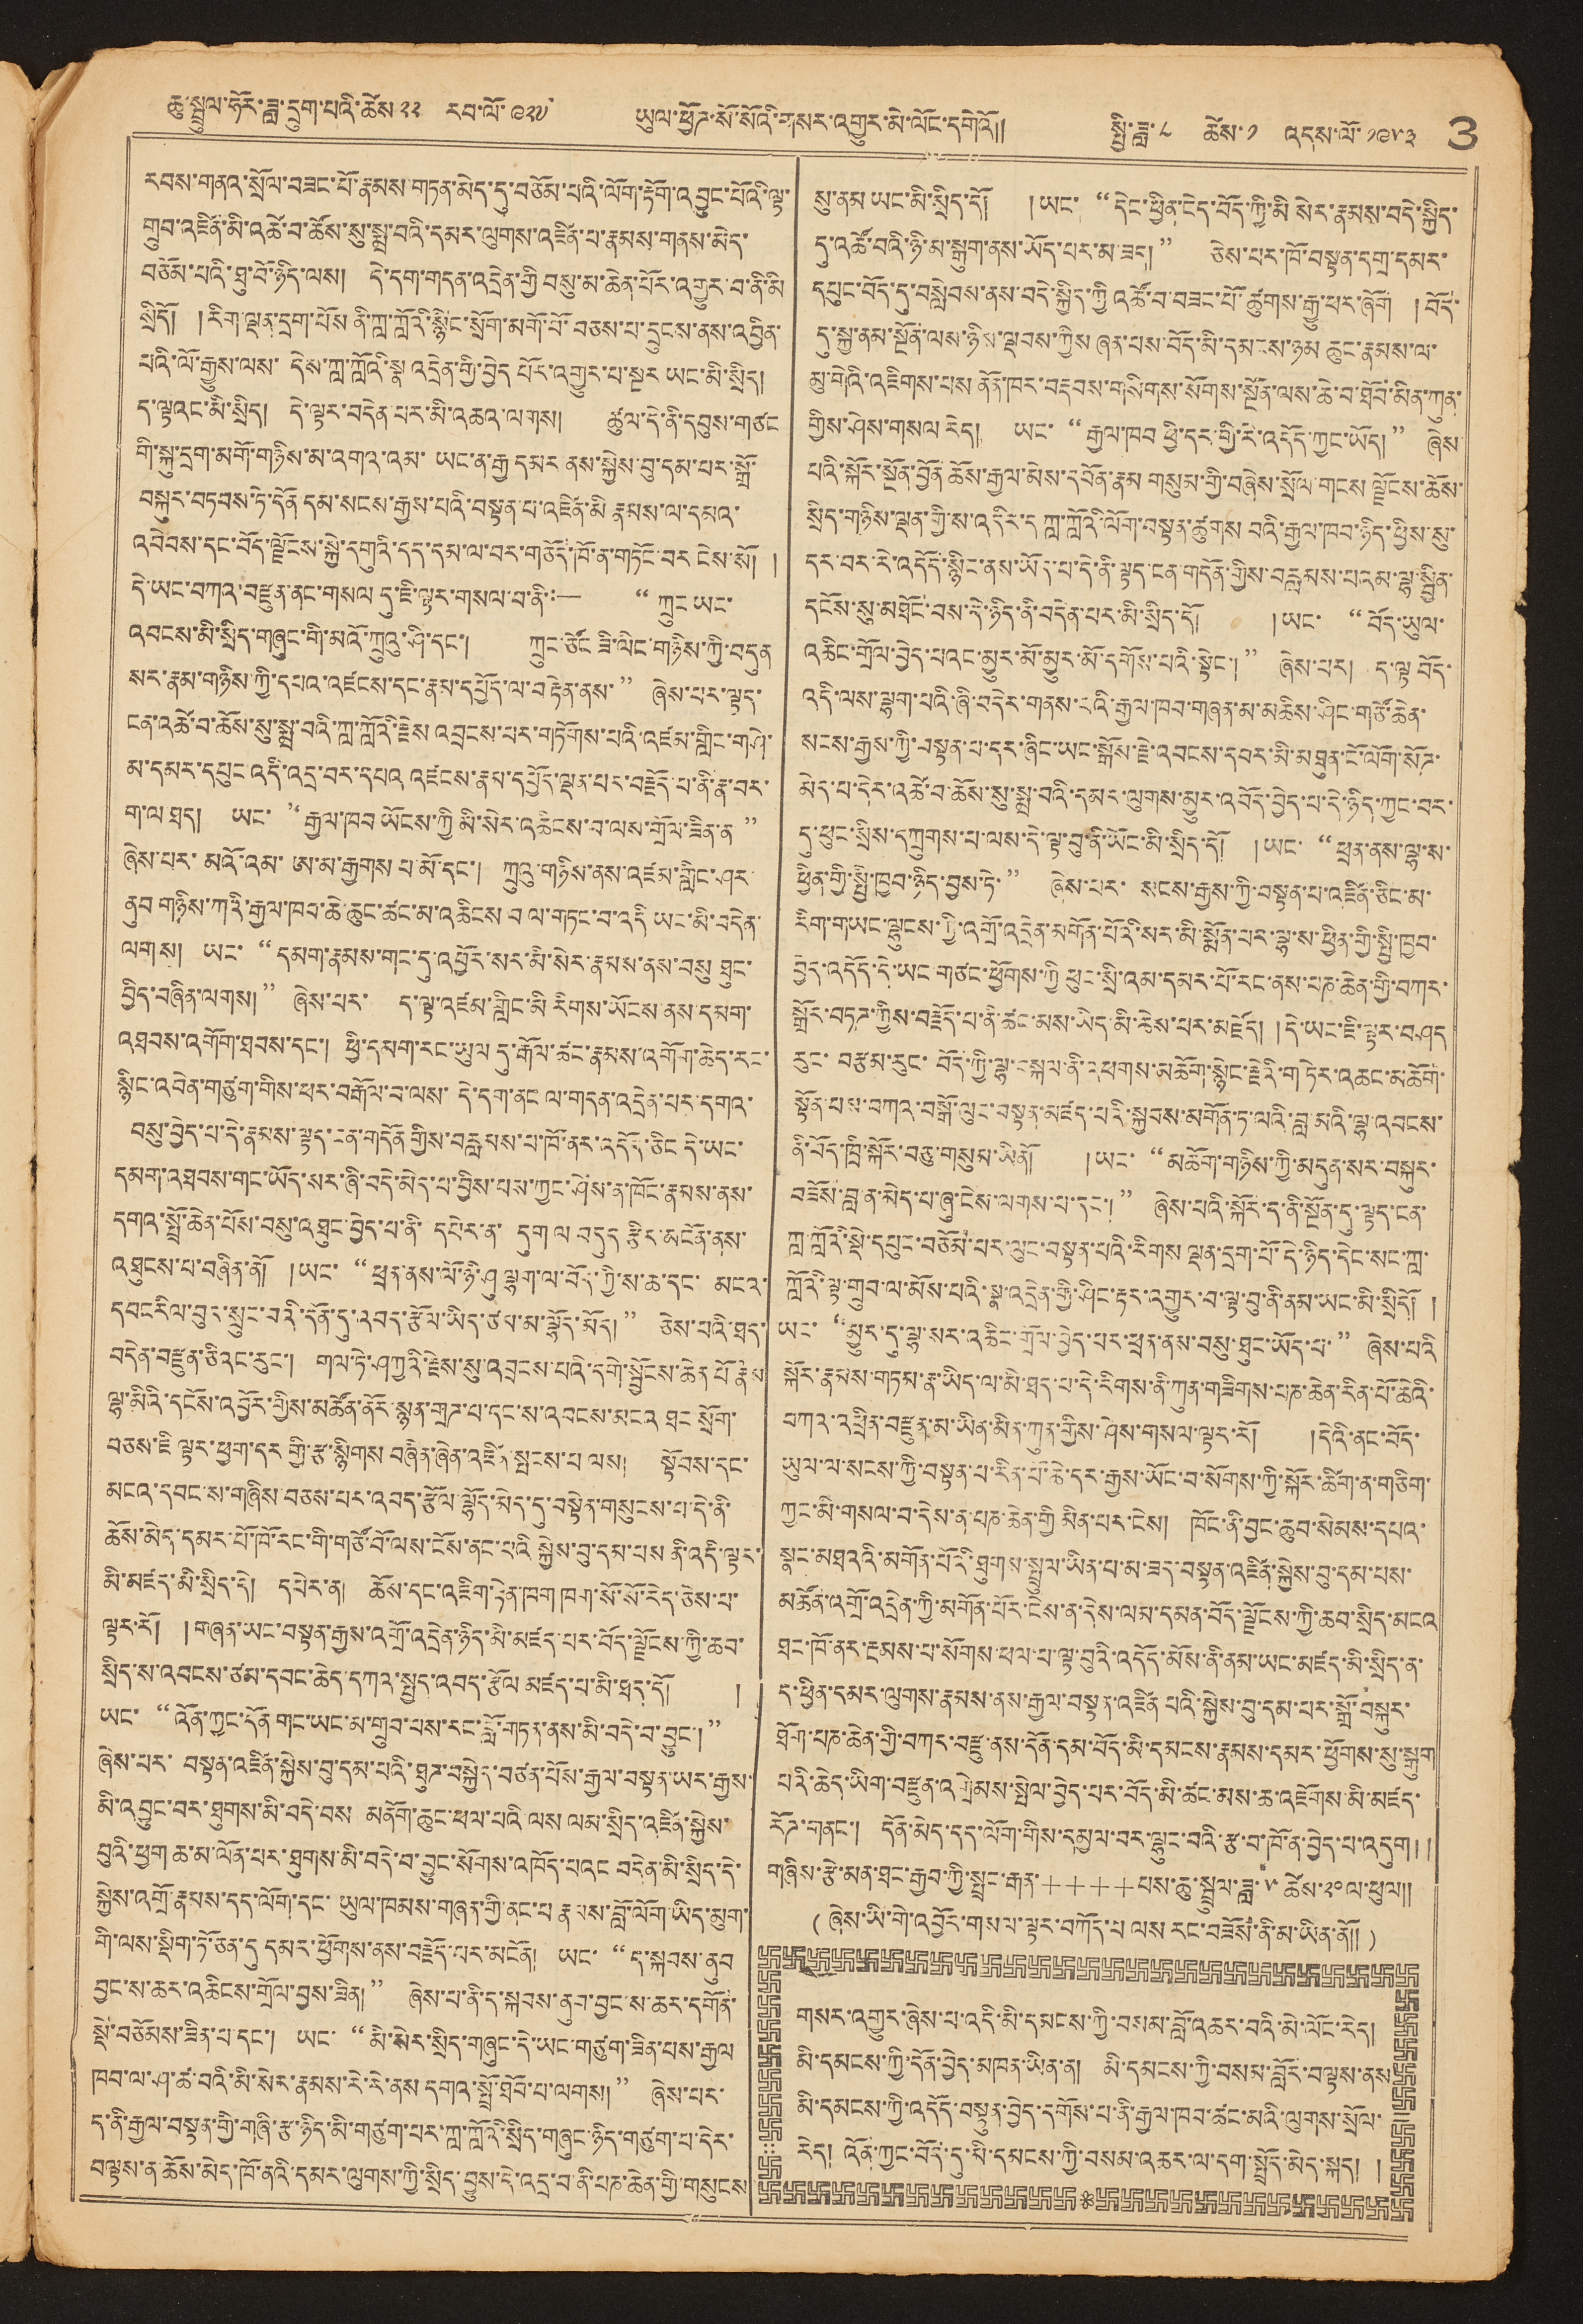ཆུ་སྤྲུལ་ཧོར་ཟླ་དྲུག་པའི་ཚེས ༢༢ རབ་ལོ་༩༢༧ ཡུལ་ཕྱོཌ་སོ་སོའི་གསར་འགྱུར་མེ་ལོང་དགེའོ།། སྤྱི་ཟླ་ ༨ ཚེས་ ༡ འདས་ལོ་ ༡༩༥༣ 3
རབས་གནའ་སྲོལ་བཟང་པོ་རྣམས་གཏན་མེད་དུ་བཅོམ་པའི་ལོག་རྟོག་འབྱུང་པོའི་ལྟ་
གྲུབ་འཛིན་མི་འཚེ་བ་ཚོས་སུ་སྨྲ་བའི་དམར་ལུགས་འཛིན་པ་རྣམས་གནས་མེད་
བཅོམ་པའི་ཐུ་བོ་ཉིད་ལས། དེ་དག་གདན་འདྲེན་གྱི བསུ་མ་ཆེན་པོར་འགྱུར་བ་ནི་མི
སྲིདོ། །རིག་ལྡན་དྲག་པོས ནི་ཀླ་ཀླའི་སྙིང་སྲོག་མགོ་བོ་བཅས་པ་དྲུངས་ནས་འབྱིན་
པའི་ལོ་རྒྱུས་ལས་དེས་ཀླ་ཀླའི་སྣ འདྲེན་གྱི་བྱེད པོར་འགྱུར་པ་སྔར ཡང་མི་སྲིད།
ད་ལྟའང་མི་སྲིད། དེ་ལྟར་བདེན་པར་མི་འཆའ་ལགས། ཚུལ་དེ་ནི་དབུགས་གཙང
གི་སྐུ་དྲག་མགོ་གཉིས་མ་འགའ་འམ་ཡང་ན་རྒྱ དམར ནས་སྐྱེས་བུ་དམ་པར་སྒྲོ་
བསྐུར་བཏབས་ཏེ་དོན་དམ་སངས་རྒྱས་པའི་བསྟན་པ་འཛིན་མི རྣམས་ལ་དམའ་
འབེབས་དང་བོད་ལྗོངས་སྐྱེ་དགུའི་དད་དམ་ལ་བར་གཅོད་ཁོ་ན་གཏོང་བར ངེས་སོ།།
དེ་ཡང་བཀའ་བརྫུན་ནང་གསལ དུ་ཇི་ལྟར་གསལ་བ་ནི༜— "ཀྲུང་ཡང་
འབངས་མི་སྲིད་གཞུང་གི་མའོ་ཀྲུའུ་ཤི་དང་། ཀྲུང་ཙོང ཟི་ལིང་གཉིས་ཀྱི་བདུན
སར་རྣམ་གཉིས་ཀྱི་དཔའ་འཛམས་དང་རྣམ་དཔྱོད་ལ་བརྟེན་ནས་" ཞེས་པར་ལྟད་
ངན་འཚེ་བ་ཆོས་སུ་སྨྲ་བའི་ཀླ་ཀླའི་རྫེས་འབྲངས་པར་གཏོགས་པའི་འཛམ་གླིང་གཤེ་
མ་དམར་དཔུང་འདི་འདྲ་བར་དཔའ འཛངས་རྣམ་དཔྱོད་ལྡན་པར་བརྗོད་པ་ནི་རྣ་བར་
ག་ལ ཐད། ཡང་ '' རྒྱལ་ཁབ ཡོངས་ཀྱི མི་སེར་འཆིངས་བ་ལས་གྲོལ་ཟིན་ན "
ཞེས་པར་མའོ་འམ་ཨ་མ་རྒྱགས པ་མོ་དང་། ཀྲུའུ་གཉིས་ནས་འཛམ་གླིང་ཤར
ནུབ གཉིས་ཀའི་རྒྱལ་ཁབ་ཆེ་ཆུང་ཚང་མ་འཆིངས བ ལ་གཏང་བ་འདི ཡང་མི་བདེན་
ལགས། ཡང་ "དམག་རྣམས་གང་དུ་འབྱོར་སར་མི་སེར་རྣམས་ནས་བསུ ཐུང་
བྱེད་བཞིན་ལགས།" ཞེས་པར་ ད་ལྟ་འཛམ་གླིང་མི་རིགས་ཡོངས་ནས་དམག་
འཐབས་འགོག་ཐབས་དང་། ཕྱི་དམག་རང་ཡུལ དུ་རྒོལ་རྣམས་འགོག་ཆེད་རང་
སྙིང་འབེན་གཙུག་གིས་ཕར་བརྒོལ་བ་ལས་དེ་དག་ནང་ལ་གདན་འདྲེན་པར་དགའ་
བསུ་བྱེད་པ་དེ་རྣམས་ལྟད་ངན་གདོན གྱིས་བརླབས་པ་ཁོ་ནར་འདོད་ཅིང དེ་ཡང་
དམག་འཐབས་གང་ཡོད་སར་ཞི་བདེ་མེད་པ་བྱིས་པས་ཀྱང་ཤེས་ན་ཁོང་རྣམས་ནས་
དགའ་སྤྲོ་ཆེན་པོས་བསུ་འཐུང་བྱེད་པ་ནི་དཔེར་ན་དུག ལ བདུད རྩིར་མངོན་ནས་
འཐུངས་པ་བཞིན་ནོ། །ཡང་ " ཕྲན་ནས་ལོ་ཉི་ཤུ ལྷག་ལ་བོད་ཀྱི་ས་ཆ་དང་མངའ་
དབང རིལ་བུར་སྲུང་བའི་དོན་དུ་འབད་རྩོལ་ཡིད་ཙམ་མ་ལྷོད་མོད།" ཅེས་པའི་ཐད་
བདེན་བརྫུན་ཅིའང་རུང་། གལ་ཏེ་ཤཀྱའི་རྗེས་སུ་འབྲངས་པའི་དགེ་སྦྱོངས་ཆེན་པོ རྣམ
ལྷ་མིའི་དངོས་འབྱོར་གྱིས་མཚོན་ནོར་སྙན་གྲཌ་པོ་དང་འབངས་མངའ ཐང སྲོག་
བཅས་ཇི་ལྟར་ཕྱག་དར གྱི་རྩ་སྙིགས བཞིན་ཞེན་འཛིན་སྤངས་པ ལས། །སྟོབས་དང་
མངའ་དབང་ས་གཞིས་བཅས་པར་འབད་རྩོལ་ལྷོད་མེད་དུ་བསྟེན་གསུངས་པ་དེ་ནི་
ཆོས་མེད་དམར་པོ་ཁོ་རང་གི་གཙོ་བོ་ལས་ངོས་ནང་པའི སྐྱེས་བུ་དམ་པས ནི་འདི་ལྟར་
མི་མཛད་མི་སྲིད་དེ། དཔེར་ན། ཆོས་དང་འཇིག་རྟེན་ཁག ཁག་སོ་སོ་རེད་ཅེས་པ་
ལྟར་རོ། །གཞན་ཡང་བསྟན་རྒྱས་འགྲོ་འདྲེན་ཉིད་མི་མཛད་པར་བོད་ལྗོངས་ཀྱི་ཆབ་
སྲིད་ས་འབངས་ཙམ་དབང་ཙམ་དབང་ཆེད་དཀའ་སྤྱད་འབད་རྩོལ མཛད་པ་མི་ཐད་དོ། །
ཡང་ "འོན་ཀྱང་དོན་གང་ཡང་མ་གྲུབ་པས་རང་བློ་གཏན་ནས་མི་བདེ་བ་བྱུང་།"
ཞེས་པར་བསྟན་འཛིན་སྐྱེས་བུ་དམ་པའི་ཐུཌ་བསྐྱེད་བཙན་པོས་རྒྱལ་བསྟན་ཡར་རྒྱས་
མི་འབྱུང་བར་ཐུགས་མི་བདེ་བས མནོག་ཆུང་ཕལ་པའི་ལས་སྲིད་འཛིན་སྐྱེས་
བུའི་ཕྱག ཆ་མ་ལོན་པར་ཐུགས་མི་བདེ་བ་བྱུང་སོགས་འཁོད་པའང བདེན་མི་སྲིད་དེ་
སྐྱེས་འགྲོ་རྣམས་དད་ལོག་དང་ཡུལ་ཁམས་གཞན་གྱི་ནང་པ་རྣམས་བློ་ལོག་ཡིད་མུག་
གི་ལས་ལྡིག་ཏོ་ཅན་དུ དམར་ཕྱོགས་ནས་བརྗོད་པར་མངོན། ཡང་ "ད་སྐབས་ནུབ
བྱང་ས་ཆར་འཆིངས་གྲོལ་བྱས་ཟིན།" ཞེས་པ་ནི་ད་སྐབས་ནུབ་བྱང་ས་ཆར་དགོན་
སྡེ་བཅོམས་ཟིན་པ་དང་། ཡང་ "མི་སེར་སྲིད་གཞུང་དེ་ཡང་གཙུག་ཟིན་པས་རྒྱལ
ཁབ་ལ་ཤ་ཚ་བའི་མི་སེར་རྣམས་རེ་རེ་ནས་དགའ་སྤྲོ་ཐོབ་པ་ལགས།" ཞེས་པར་
ད་ནི་རྒྱལ་བསྟན་གྱི་གཞི་རྩ་ཉིད་མི་གཙུག་པར་ཀླ་ཀློའི་སྲིད་གཞུང་ཉིད་གཙུག་པ་དེར་
བལྟས་ན ཚོས་མེད་ཁོ་ནའི་དམར་ལུགས་ཀྱི་སྲིད་བྱུས་དེ་འདྲ་བ་ནི་པན་ཆེན་གྱི་གསུངས
སུ་ནམ་ཡང་མི་སྲིད་དོ། །ཡང་ "དེང་ཕྱིན་ངེད་བོད་ཀྱི་མི སེར་རྣམས་བདེ་སྐྱིད་
དུ་འཚོ་བའི་ཉི་མ་སྒུག་ནས་ཡོད་པར་མ་ཟད།" ཅེས་པར་ཁོ་བསྟན་དགྲ་དམར་
དཔུང་བོད་དུ་བསླེབས་ནས་བདེ་སྐྱིད་ཀྱི འཚོ་བ་བཟང་ཕོ་ཚུགས་རྒྱུ་པར་ཞོག །བོད་
དུ་སྐྱ་ནམ་སྔོན་ལས་ཉིས་ལྡབས་ཀྱིས ཞན་པས་བོད་མི་དམངས་ཉམ ཆུང་རྣམས་ལ་
མུ་གེའི་འཇིགས་པས ནོན་ཁར་བརྡབས་གསིགས་སོགས་སྔོན་ལས་ཆེ་བ་ཐོབ་མིན་ཀུན་
གྱིས་ཤེས་གསལ རེད། ཡང་ "རྒྱལ་ཁབ ཕྱི་དར་གྱི་རི་འདོད་ཀྱང་ཡོད།" ཞེས་
པའི་སྐོར་སྔོན་བྱོན ཆོས་རྒྱལ་མེས་དཔོན་རྣམ གསུམ་གྱི་བཞེས་སྲོལ་གངས ལྗོངས་ཆོས་
སྲིད་གཉིས་ལྡན་གྱི་ས་འདིར་ད ཀླ་ཀློའི་ལོག་སྟན་ཚུགས པའི་རྒྱལ་ཁབ་ཉིད་ཕྱིས་སུ་
དར་བར་རེ་འདོད་སྙིང་ནས་ཡིད་པ་དེ་ནི་ལྟད་ངན་གདོན་གྱིས་བརླམས་པའམ་ལྷ་སྦྱིན་
དངོས་སུ་མཐོང་བས་དེ་ཉིད་ནི་བདེན་པར་མི་སྲིད་དོ། །ཡང་ "བོད་ཡུལ་
འཆིང་གྲོལ་བྱེད་པའང་མྱུར་མོ་མྱུར་མི་དགོས་པའི་སྟེང་།" ཞེས་པར། ད་ལྟ བོད་
འདི་ལས་ལྷག་པའི་ཞི་བདེར་གནས་ངའི་རྒྱལ་ཁབ་གཞན་མ་མཆིས་ཤིང་གཙོ་ཆེན་
སངས་རྒྱས་ཀྱི་བསྟན་པ་དར་ཞིང་ཡང་སྒོས་རྗེ་འབངས་དབར་མི་མཐུན་ངོ་ལོག་སོཌ་
མེད་པ་དེར་འཚེ་ན་ཆོས་སུ་སྨྲ་བའི་དམར་ལུགས་མྱུར་འབོད་བྱེད་པ་དེ་ཉིད་ཀྱང་བར་
དུ་ཕུང་སྲིས་དཀྲུགས་པ་ལས་དེ་ལྟ་བུ་ནི་ཡོང་མི་སྲིད་དོ། །ཡང་ "ཕྲན་ནས་ལྷ་ས་
ཕྱིན་གྱི་སྤྱི་ཁྱབ་ཉིད་བྱས་ཏེ་ " ཞེས་པར་སངས་རྒྱས་ཀྱི་བསྟན་པ་འཛིན་ཅིང་མ་
རིག་གཡང་ལྷུངས་ཀྱི་འགྲོ་འདྲེན་མགོན་པོའི་སར་མི་སྨོན་པར་ལྷ་ས་ཕྱིན་གྱི་སྤྱི་ཁྱབ་
བྱེད་འདོད་དེ་ཡང་གཙང་ཕྱོགས་ཀྱི ཕུང་སྲི་འམ་དམར་པོ་རང་ནས་པཎ་ཆེན་གྱི་བཀར་
སྒྲོན་བཏཌ་ཀྱིས་བརྗོད་པ་ནི་ཚང་མས་ཡིད་མི་ཆེས་པར་མཛོད། །དེ་ཡང་ཇི་ལྟར་བཤད
རུང་བརྩམ་རུང་བོད་ཀྱི་ལྷ་བསྐལ་ནི་འཕགས་མཆོག་སྙིང་རྗེའི་གཏེར་འཆང་མཆོག་
སྟོན་པས་བཀའ་བསྒོ་ལུང་བསྟན་མཛད་པའི་སྐྱབས་མགོན་ཏ་ལའི་བླ་མའི་ལྷ་འབངས་
ནི་བོད་ཁྲི་སྐོར་བཅུ་གསུམ་ཡིནོ། །ཡང་ " མཆོག་གཉིས་ཀྱི་མདུན་སར་བསྐུར་
བཟོས་བླ་ན་མེད་པ་ཞུ་ངེས་ལགས་པ་དང་། " ཞེས་པའི་སྐོར་ད་ནི་སྔོན་དུ་ལྟད་ངན་
ཀླ་ཀློའི་སྡེ་དཔུང་བཅོམ་པར་ལུང་བསྟན་པའི་རིགས ལྡན་དྲག་པོ་དེ་ཉིད་དེང་སང་ཀླ་
ཀློའི་ལྟ་གྲུབ་ལ་མོས་པའི་སྣ་འདྲེན་གྱི་ཤིང་རྟར་འགྱུར་བ་ལྟ་བུ་ནི་ནམ་ཡང་མི་སྲིདོ།།
ཡང་ " མྱུར་དུ་ལྷ་སར་འཆིང་གྲོལ་བྱེད་པར་ཕྲན་ནས་བསུ་ཐུང་ཡོད་པ་" ཞེས་པའི
སྐོར་རྣམས་གཏམ་རྣ་ཡིད་ལ་མི་ཐད་པ་དེ་རིགས་ནི་ཀུན་གཟིགས་པཎ་ཆེན་རིན་པོ་ཆེའི་
བཀའ་འཕྲིན་བརྫུན་མ་ཡིན་མིན་ཀུན་གྱིས་ཤེས་གསལ་ལྟར་རོ། །དེའི་ནང་བོད་
ཡུལ་ལ་སངས་རྒྱས་ཀྱི་བསྟན་པ་རིན་པོ་ཆེ་དར་རྒྱས་ཡོང་བ་སོགས་ཀྱི་སྐོར་ཚིག་ན་གཅིག་
ཀྱང་མི་གསལ་བ་དེས་ན་པཎ་ཆེན་གྱི མིན་པར་ངེས། །ཁོང་ནི་བྱང་ཆུབ་སེམས་དཔའ་
སྣང་མཐའའི་མགོན་པོའི་ཐུགས་སྤྲུལ་ཡིན་པ་མ་ཟད་བསྟན་འཛིན་སྐྱེས་བུ་དམ་པས་
མཚོན་འགྲོ་འདྲེན་ཀྱི་མགོན་པོར་ངེས་ན་དེས་ལམ་དམན་བོད་ལྗོངས་ཀྱི་ཆབ་སྲིད་མངའ
ཐང་ཁོ་ནར་རྔམས་པ་སོགས་ཕལ་པ་ལྟ་བུའི་འདོད་མོས་ནི་ནམ་ཡང་མཛད་མི་སྲིད་ན་
ད་ཕྱིན་དམར་ལུགས་རྣམས་ནས་རྒྱལ་བསྟན་འཛིན་པའི་སྐྱེས་བུ་དམ་པར་སྒྲོ་བསྐུར་
ཐོག་པཎ་ཆེན་གྱི་བཀར་བརྫུ་ནས་དོན་དམ་བོད་མི་དམངས་རྣམས་དམར་ཕྱོགས་སུ་སྒུག
པའི་ཆེད་ཡིག་བརྫུན་འགྲེམས་སྤེལ་བྱེད་པར་བོད་མི་ཚང་མས་ཆ་འཇོགས་མི་མཛད་
རོཌ་གནང་། དོན་མེད་དད་ལོག་གིས་དམྱལ་བར་ལྷུང་བའི་རྩ་བ་ཁོ་ན་བྱེད་པ་འདུག།།།
གཞིས་རྩེ་ནམ་ཐང་རྒྱབ་ཀྱི་སྤྲང་རྒན་++++པས་ཆུ་སྦྲུལ་ཟླ་༥ཚེས་༢༠ལ་ཕུལ།།
( ཞེས་ཡི་གེ་འབྱོར་གསལ་ལྟར་བཀོད་པ ལས རང་བཟོས་ནི་མ་ཡིན་ནོ།། )
གསར་འགྱུར་ཞེས་པ་འདི་མི་དམངས་ཀྱི་བསམ་བློ་འཆར་བའི་མེ་ལོང་རེད།
མི་དམངས་ཀྱི་དོན་བྱེད་མཁན་ཡིན་ན། མི་དམངས་ཀྱི་བསམ་བློར་བལྟས་ནས
མི་དམངས་ཀྱི་འདོད་བསྟུན་བྱེད་དགོས་པ་ནི་རྒྱལ་ཁབ་ཚང་མའི་ལུགས་སྲོལ་
རེད། འོན་ཀྱང་བོད་དུ་མི་དམངས་ཀྱི་བསམ་འཆར་ལ་དག་སྤྲོད་མེད་སྐད།།
